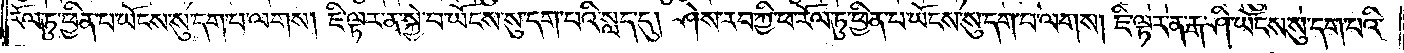རོལ་ཏུ་ཕྱིན་པ་ཡོངས་སུ་དག་པ་ལགས། ཇི་ལྟར་ན་སྐྱེ་བ་ཡོངས་སུ་དག་པའི་སླད་དུ། ཤེས་རབ་ཀྱི་ཕ་རོལ་ཏུ་ཕྱིན་པ་ཡོངས་སུ་དག་པ་ལགས། ཇི་ལྟར་ན་རྒ་ཤི་ཡོངས་སུ་དག་པའི་
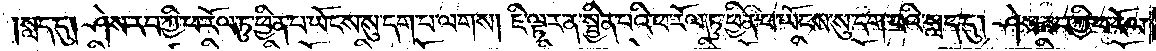སླད་དུ། ཤེས་རབ་ཀྱི་ཕ་རོལ་ཏུ་ཕྱིན་པ་ཡོངས་སུ་དག་པ་ལགས། ཇི་ལྟར་ན་སྦྱིན་པའི་ཕ་རོལ་ཏུ་ཕྱིན་པ་ཡོངས་སུ་དག་པའི་སླད་དུ། ཤེས་རབ་ཀྱི་ཕ་རོལ་
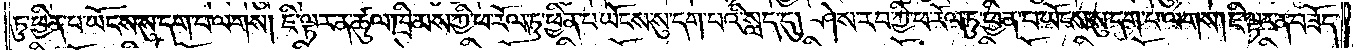ཏུ་ཕྱིན་པ་ཡོངས་སུ་དག་པ་ལགས། ཇི་ལྟར་ན་ཚུལ་ཁྲིམས་ཀྱི་ཕ་རོལ་ཏུ་ཕྱིན་པ་ཡོངས་སུ་དག་པའི་སླད་དུ། ཤེས་རབ་ཀྱི་ཕ་རོལ་ཏུ་ཕྱིན་པ་ཡོངས་སུ་དག་པ་ལགས། ཇི་ལྟར་ན་བཟོད་
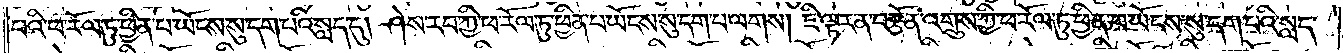པའི་ཕ་རོལ་ཏུ་ཕྱིན་པ་ཡོངས་སུ་དག་པའི་སླད་དུ། ཤེས་རབ་ཀྱི་ཕ་རོལ་ཏུ་ཕྱིན་པ་ཡོངས་སུ་དག་པ་ལགས། ཇི་ལྟར་ན་བརྩོན་འགྲུས་ཀྱི་ཕ་རོལ་ཏུ་ཕྱིན་པ་ཡོངས་སུ་དག་པའི་སླད་
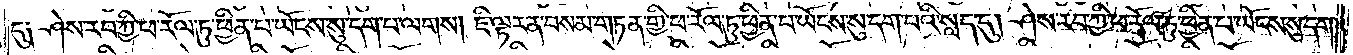དུ༑ ཤེས་རབ་ཀྱི་ཕ་རོལ་ཏུ་ཕྱིན་པ་ཡོངས་སུ་དག་པ་ལགས། ཇི་ལྟར་ན་བསམ་གཏན་གྱི་ཕ་རོལ་ཏུ་ཕྱིན་པ་ཡོངས་སུ་དག་པའི་སླད་དུ། ཤེས་རབ་ཀྱི་ཕ་རོལ་ཏུ་ཕྱིན་པ་ཡོངས་སུ་དག་
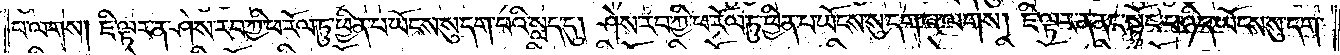པ་ལགས། ཇི་ལྟར་ན་ཤེས་རབ་ཀྱི་ཕ་རོལ་ཏུ་ཕྱིན་པ་ཡོངས་སུ་དག་པའི་སླད་དུ། ཤེས་རབ་ཀྱི་ཕ་རོལ་ཏུ་ཕྱིན་པ་ཡོངས་སུ་དག་པ་ལགས། ཇི་ལྟར་ན་ནང་སྟོང་པ་ཉིད་ཡོངས་སུ་དག་
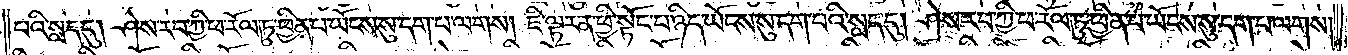པའི་སླད་དུ། ཤེས་རབ་ཀྱི་ཕ་རོལ་ཏུ་ཕྱིན་པ་ཡོངས་སུ་དག་པ་ལགས། ཇི་ལྟར་ན་ཕྱི་སྟོང་པ་ཉིད་ཡོངས་སུ་དག་པའི་སླད་དུ། ཤེས་རབ་ཀྱི་ཕ་རོལ་ཏུ་ཕྱིན་པ་ཡོངས་སུ་དག་པ་ལགས།
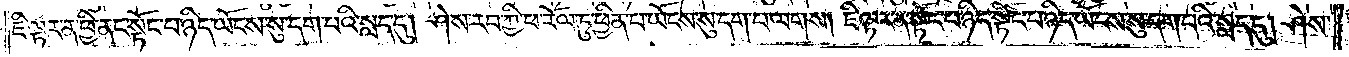ཇི་ལྟར་ན་ཕྱི་ནང་སྟོང་པ་ཉིད་ཡོངས་སུ་དག་པའི་སླད་དུ། ཤེས་རབ་ཀྱི་ཕ་རོལ་ཏུ་ཕྱིན་པ་ཡོངས་སུ་དག་པ་ལགས། ཇི་ལྟར་ན་སྟོང་པ་ཉིད་སྟོང་པ་ཉིད་ཡོངས་སུ་དག་པའི་སླད་དུ། ཤེས་
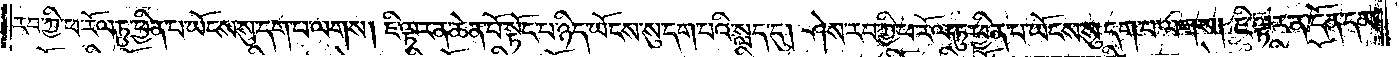རབ་ཀྱི་ཕ་རོལ་ཏུ་ཕྱིན་པ་ཡོངས་སུ་དག་པ་ལགས། ཇི་ལྟར་ན་ཆེན་པོ་སྟོང་པ་ཉིད་ཡོངས་སུ་དག་པའི་སླད་དུ། ཤེས་རབ་ཀྱི་ཕ་རོལ་ཏུ་ཕྱིན་པ་ཡོངས་སུ་དག་པ་ལགས། ཇི་ལྟར་ན་དོན་དམ་
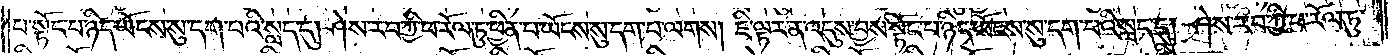པ་སྟོང་པ་ཉིད་ཡོངས་སུ་དག་པའི་སླད་དུ། ཤེས་རབ་ཀྱི་ཕ་རོལ་ཏུ་ཕྱིན་པ་ཡོངས་སུ་དག་པ་ལགས། ཇི་ལྟར་ན་འདུས་བྱས་སྟོང་པ་ཉིད་ཡོངས་སུ་དག་པའི་སླད་དུ། ཤེས་རབ་ཀྱི་ཕ་རོལ་ཏུ་
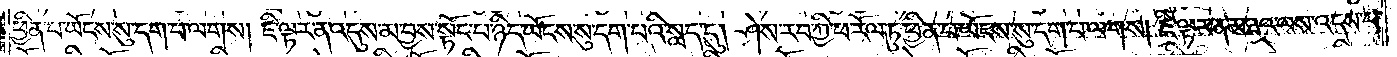ཕྱིན་པ་ཡོངས་སུ་དག་པ་ལགས། ཇི་ལྟར་ན་འདུས་མ་བྱས་སྟོང་པ་ཉིད་ཡོངས་སུ་དག་པའི་སླད་དུ། ཤེས་རབ་ཀྱི་ཕ་རོལ་ཏུ་ཕྱིན་པ་ཡོངས་སུ་དག་པ་ལགས། ཇི་ལྟར་ན་མཐའ་ལས་འདས་པ་
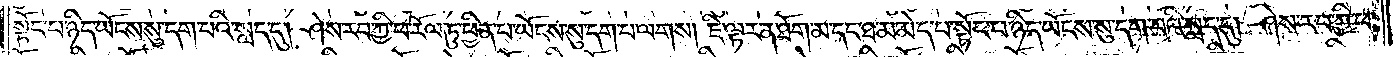སྟོང་པ་ཉིད་ཡོངས་སུ་དག་པའི་སླད་དུ། ཤེས་རབ་ཀྱི་ཕ་རོལ་ཏུ་ཕྱིན་པ་ཡོངས་སུ་དག་པ་ལགས། ཇི་ལྟར་ན་ཐོག་མ་དང་ཐ་མ་མེད་པ་སྟོང་པ་ཉིད་ཡོངས་སུ་དག་པའི་སླད་དུ། ཤེས་རབ་ཀྱི་ཕ་
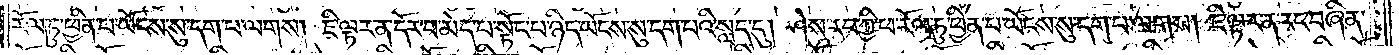རོལ་ཏུ་ཕྱིན་པ་ཡོངས་སུ་དག་པ་ལགས། ཇི་ལྟར་ན་དོར་བ་མེད་པ་སྟོང་པ་ཉིད་ཡོངས་སུ་དག་པའི་སླད་དུ། ཤེས་རབ་ཀྱི་ཕ་རོལ་ཏུ་ཕྱིན་པ་ཡོངས་སུ་དག་པ་ལགས། ཇི་ལྟར་ན་རང་བཞིན་
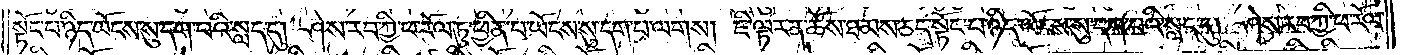སྟོང་པ་ཉིད་ཡོངས་སུ་དག་པའི་སླད་དུ། ཤེས་རབ་ཀྱི་ཕ་རོལ་ཏུ་ཕྱིན་པ་ཡོངས་སུ་དག་པ་ལགས། ཇི་ལྟར་ན་ཆོས་ཐམས་ཅད་སྟོང་པ་ཉིད་ཡོངས་སུ་དག་པའི་སླད་དུ། ཤེས་རབ་ཀྱི་ཕ་རོལ་
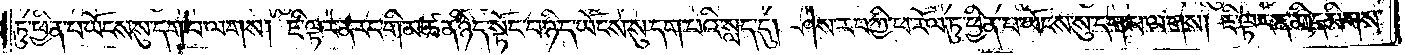ཏུ་ཕྱིན་པ་ཡོངས་སུ་དག་པ་ལགས། ཇི་ལྟར་ན་རང་གི་མཚན་ཉིད་སྟོང་པ་ཉིད་ཡོངས་སུ་དག་པའི་སླད་དུ། ཤེས་རབ་ཀྱི་ཕ་རོལ་ཏུ་ཕྱིན་པ་ཡོངས་སུ་དག་པ་ལགས། ཇི་ལྟར་ན་མི་དམིགས་
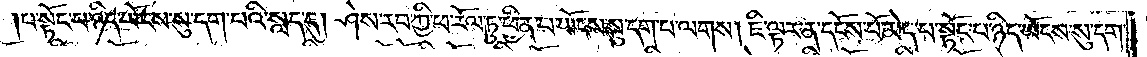པ་སྟོང་པ་ཉིད་ཡོངས་སུ་དག་པའི་སླད་དུ། ཤེས་རབ་ཀྱི་ཕ་རོལ་ཏུ་ཕྱིན་པ་ཡོངས་སུ་དག་པ་ལགས། ཇི་ལྟར་ན་དངོས་པོ་མེད་པ་སྟོང་པ་ཉིད་ཡོངས་སུ་དག་
